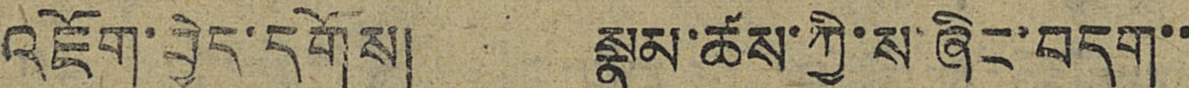འཇོག་བྱེད་དགོས། སྣུམ་ཚས་ཀྱི་ས་ཞིང་བདག་་
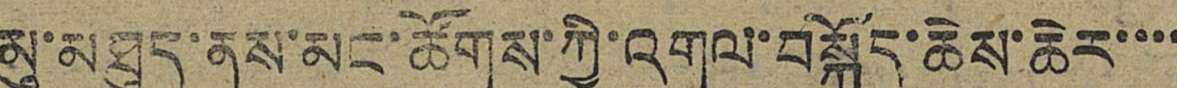མུ་མཐུད་ནས་མང་ཚོགས་ཀྱི་འགུལ་བསྐྱོད་ཆེས་ཆེར་་་་
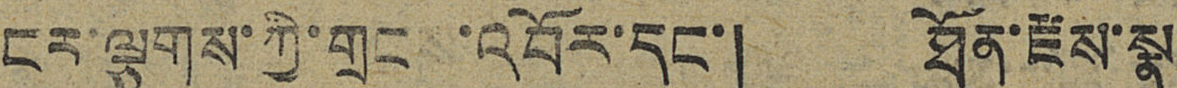ངར་ལྕགས་ཀྱི་གྲངས་འབོར་དང་། ཐོན་རྫས་སྣ་
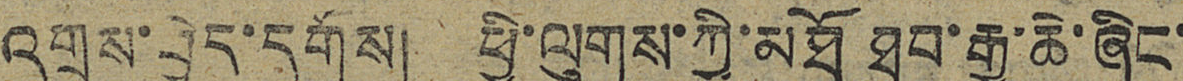འགྲུས་བྱེད་དགོས། ཕྱི་ལུགས་ཀྱི་མཐོ ཐབ་རྒྱ་ཆེ་ཞིང་
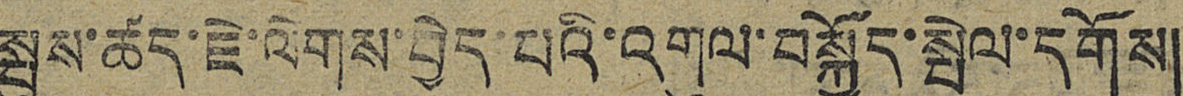སྦུས་ཚད་ཇེ་ལེགས་བྱེད་པའི་འགུལ་བསྐྱོད་སྤེལ་དགོས།
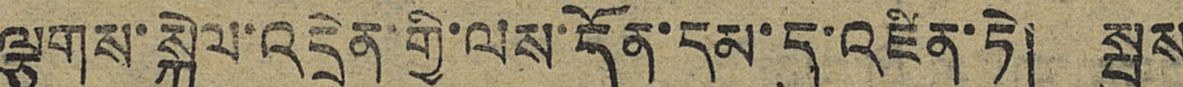ལྕགས་སྐྱེལ་འདྲེན་གྱི་ལས་དོན་དམ་དུ་འཛིན་ཏེ། སྦུས
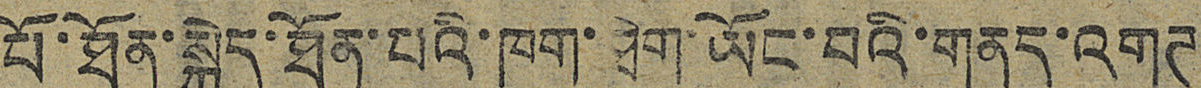པོ་ཐོན་སྐྱེད་ཐོན་པའི་ཁག་ཐེག་ཡོང་བའི་གནད་འགཊ
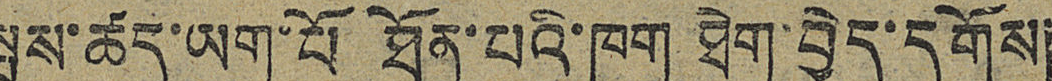སྤུས་ཚད་ཡག་པོ ཐོན་པའི་ཁག ཐེག་བྱེད་དགོས།
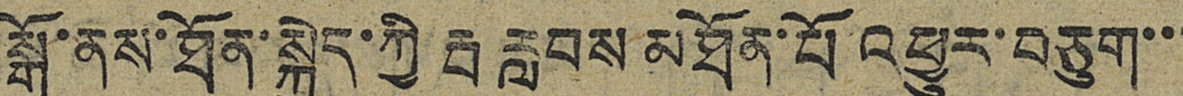སྒོ་ནས་ཐོན་སྐྱེད་ཀྱི རྦ རླབས མཐོན་པོ འཕྱུར་བཅུག་་་
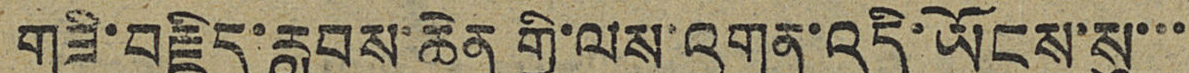གཟི་བརྗིད་རླབས་ཆེན གྱི་ལས་འགན་འདི་ཡོངས་སུ་་་་
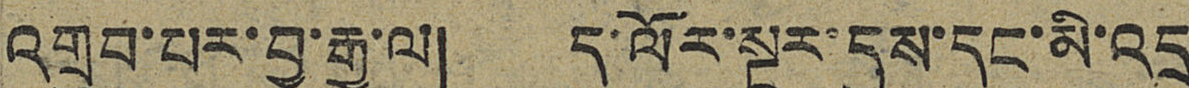འགྲུབ་པར་བྱ་རྒྱུ་ལ། ད་ལོར་སྔར་དུས་དང་མི་འདྲ
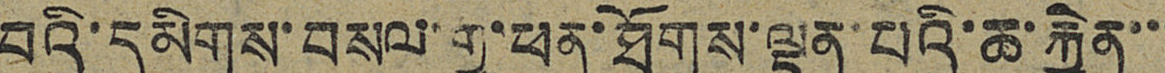བའི་དམིགས་བསལ་གྱི་ཕན་ཐོགས་ལྔན་པའི་ཆ་རྐྱེན་་་
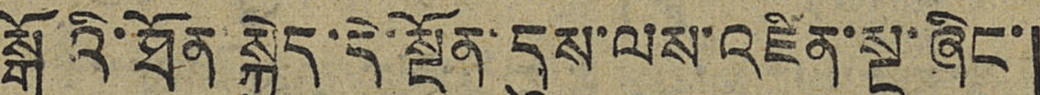སྒོའི་ཐོན་སྐྱེད་དེ་སྔོན་དུས་ལས་འཛིན་སྔ་ཞིང་།
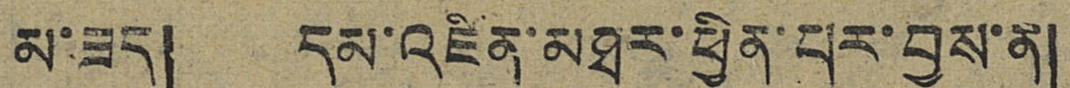མ་ཟད། དམ་འཛིན་མཐར་ཕྱིན་པར་བྱས་ན།
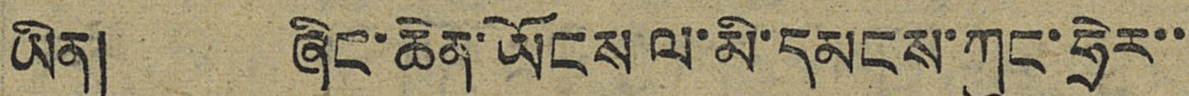ཡིན། ཞིང་ཆེན་ཡོངས ལ་མི་དམངས་ཀུང་ཧྲེར་་་
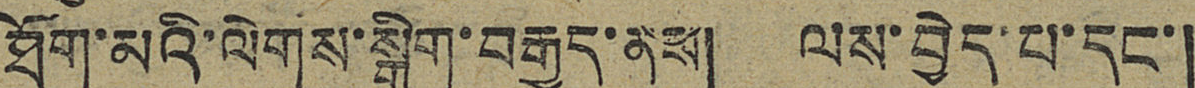ཐོག་མའི་ལེགས་སྒྲིག་བརྒྱུད་ནས། ལས་བྱེད་པ་དང་།
